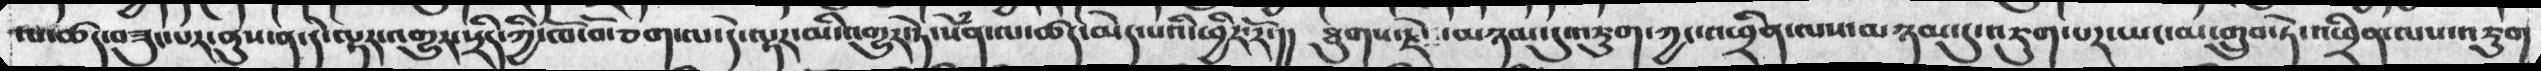ལ་ཚད་བཟུང་པར་ནུས་ན་དེ་ལྟར་འགྱུར་སྲིད་ཀྱི་ཁོ་བོ་ཅག་ལ་དེ་ལྟར་མི་འགྱུར་ཏེ་སེཾན་ལ་ཚད་མེད་པའི་ཕྱིར་རོ་།། ཐུགས་རྗེ་མཉམ་དུ་འཇུག་ཀྱང་འཕྲིན་ལས་མཉམ་དུ་འཇུག་པར་ཡང་མ་གྲུབ་ཏེ་འཕྲིན་ལས་འཇུག
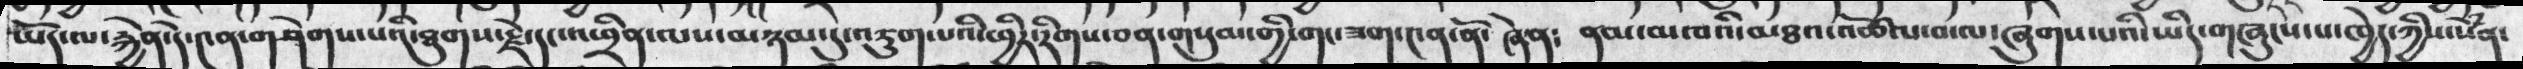ཡོད་ལ་རྐྱེན་དེ་༤ན་གཤེགས་པའི་ཐུགས་རྗེ་དང་འཕྲིན་ལས་མཉམ་དུ་འཇུག་པའི་ཕྱིར་རིགས་ཅན་གསུམ་གྱི་གང་ཟག་༤ན་ནོ་ཞེ་ན༴ ནམ་མཁའི་མཐའ་འཚོལ་བ་ལ་ཞུགས་པའི་ཡིད་གཞུངས་པ་ཁྱེད་ཀྱིས་སེཾན་
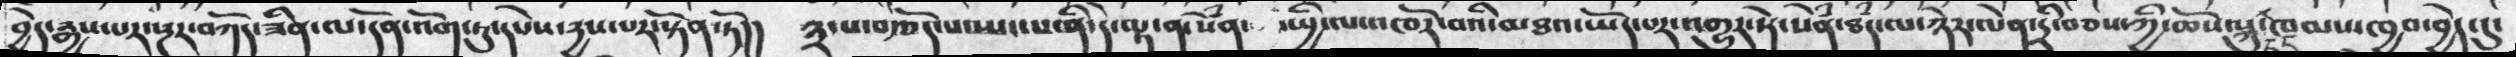བྱེད་རྒྱས་པར་སྔར་བཀོད་ཟིན་ལ་དོན་འོགཏུ་དཔེས་དྱས་པར་སྟོན་ཏོ།།  ༣་པ་རྩོད་པ་སྤང་པ་ནི་དེ་ལྟ་ན་སེཾན་  སྤྱི་ལ་འཁོར་བའི་མཐའ་ཡོད་པར་འགྱུར་སྟེ་སེཾན་ཐཾད་ལ་ཉེར་ལེན་དྲི་བཅས་ཀྱི་བཅས་ཀྱི་ཆོས་སྐུ་ངང་ཁམས་ཁྱབ་བྱེད་དུ་
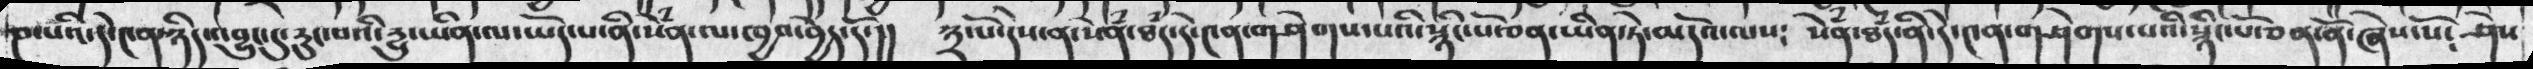ཎ་པའི་དེ་༤ན་ཉིད་འབྱུང་དུ་རུང་བའི་རྱུ་ཡིན་ལ་ཡོད་པ་ནི་སེཾན་ལ་ཁྱབ་བྱེད་དོ་།། ༣་པ་དེས་ན་སེཾན་ཐཾད་དེ་༤ན་གཤེགས་པའི་སྙིང་པོ་ཅན་ཡིན་ཏེ་མདོའ་ལས༴ སེཾན་ཐཾད་ནི་དེ་༤ན་གཤེགས་པའི་སྙིང་པོ་ཅན་ནོ་ཞེས་སོ༴ ཤེས
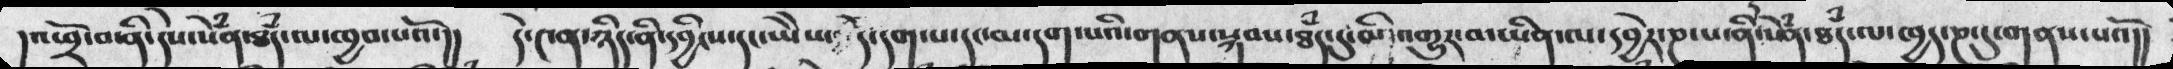།འཕྲོ་བ་ནི་དེས་སེཾན་ཐཾད་ལ་ཁྱབ་པའོ་།། དེ་༤ན་ཉིད་ནི་དབྱིངས་དང་ཡཻས་དེ་དག་པ་དང་མ་དག་པའི་གནས་སྐབས་ཐཾད་དུ་མི་འགྱུར་བ་ཡིན་ལ་དབྱེར་ཎ་པ་ནི་སེཾན་ཐཾད་ལ་ཁྱད་ཎ་དུ་གནས་པའོ།།
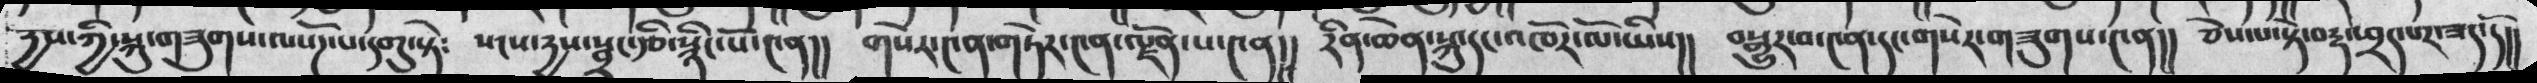རྱས་ཀྱི་སྐུ་གཟུགས་ལསོཌ་པ་དགུ་སྟེ༴ སངས་རྱས་སྦྲང་རྩི་སྙིང་པོ་༤ན།།་ གསེར་༤ན་གཏེར་༤ན་ལྗོན་པ་༤ན།། ་རིན་ཆེན་སྐུ་དང་འཁོར་ལོ་ཡིས།། ་བསྒྱུར་བ་༤ན་དང་གསེར་གཟུགས་༤ན།། ཅེས་པ་སྟེ་བརྡ་ཕྲད་པར་ཟད་དོ།།
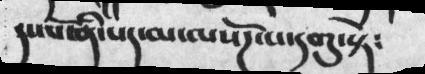དང་པོ་ནི་པད་མ་ལསོཌ་པ་དགུ་སྟེ༴
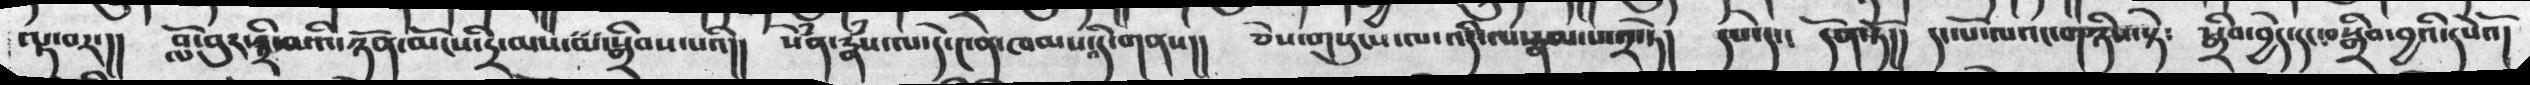ལྟ་བར་།། བློ་བུར་དྲི་མའི་ཉོན་མོངས་དྲི་མས་མ་སྒྲིབས་པའི།། སེཾན་རྣཾས་ལ་དེ་༤ན་ཁམས་སྟེ་གནས།། ཅེས་གསུངས་ལ་འདི་ལ་རྣམ་པ་༢་ཏེ། དཔེ་དང༴ དོན་ཏོ།། དང་པོ་ལའང་གཉིས་སྟེ༴ སྒྲིབ་བྱེད་དང་བསྒྲིབ་བྱའི་དཔེའོ།
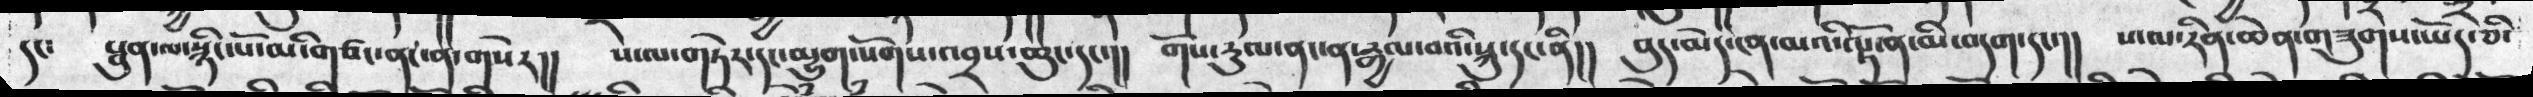དང༴ སྦུན་ལ་སྙིང་པོ་མི་གཙང་ནང་ན་གསེར།། ས་ལ་གཏེར་དང་མྱུག་སོགས་འབྲས་ཆུང་དང་།། གོས་རུལ་ནང་ན་རྒྱལ་བའི་སྐུ་དང་ནི།། བུད་མེད་ངན་པའི་ལྟོ་ན་མི་བདག་དང་།། ས་ལ་རིན་ཆེན་གཟུགས་ཡོད་ཅི་
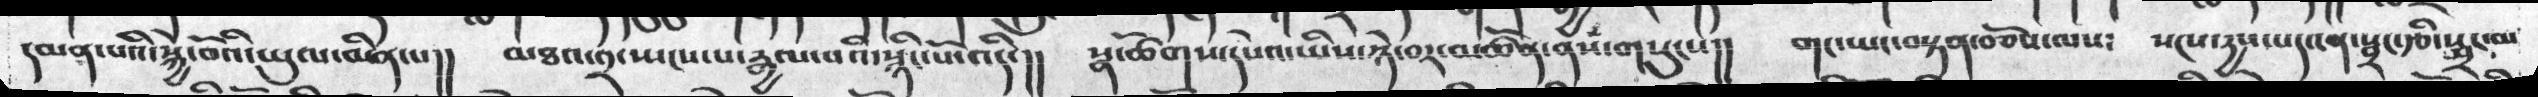དཔམ་པའི་སྐྱེ་བོའི་ཡུལ་མིན་པ།།  མཐའ་༢་སྤངས་པ་རྒྱལ་བའི་སྙིང་པོ་འདི་།།  སྣ་ཚོགས་དཔེའ་ཡིས་ཉེ་བར་མཚོན་ནས་གསུངས།།  གང་ཡད་བསྟན་བཅོས་ལས༴  སངས་དྱས་པད་ངན་སྦྲང་རྩི་སྦྲང་མ
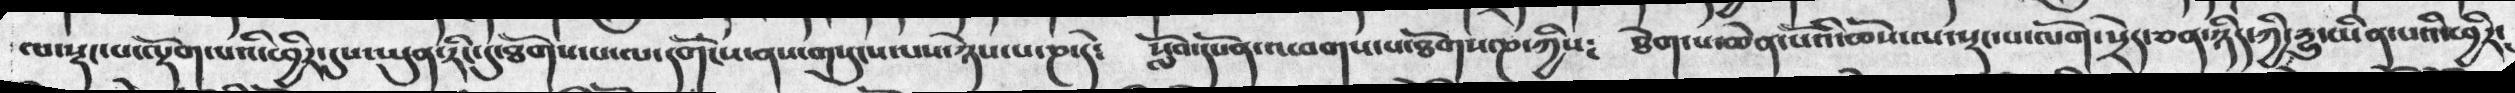ལ་སྡང་པ་ལྡོག་པའི་ཕྱིར་དུས་ཡུན་རིང་དུ་ཐོགས་པ་ལ་དགོངས་ནས་གསུངས་པས་ཉེས་པ་ཎ་དེ༴  སློབ་དཔོན་འཕགས་པ་ཐོགས་ཎ་ཀྱིས༴  ཐེག་པ་ཆེན་པོའི་ཆོས་ལ་སྡང་པ་ལོག་སྲེད་ཅན་ཉིད་ཀྱི་རྱུ་ཡིན་པའི་ཕྱིར་
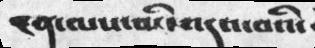ངན་ལས་མི་འདའ་བའི་
